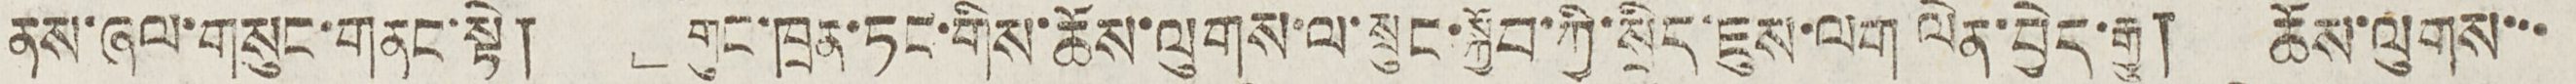ནས་ཞལ་གསུང་གནང་སྟེ། ﹂གུང་ཁྲན་ཏང་གིས་ཆོས་ལུགས་ལ་སྲུང་སྐྱོབ་ཀྱི་སྲིད་ཇུས་ལག ལེན་བྱེད་རྒྱུ། ཆོས་ལུགས་་་
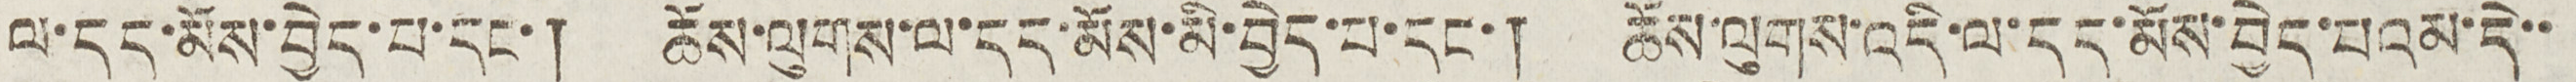ལ་དད་མོས་བྱེད་པ་དང་། ཆོས་ལུགས་ལ་དད་མོས་མི་བྱེད་པ་དང་། ཆོས་ལུགས་འདི་ལ་དད་མོས་བྱེད་པའམ་དེ་་
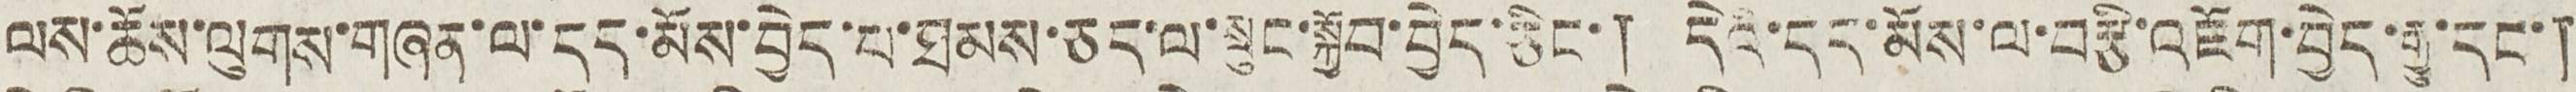ལས་ཆོས་ལུགས་གཞན་ལ་དད་མོས་བྱེད་པ་ཐམས་ཅད་ལ་སྲུང་སྐྱོབ་བྱེད་ཅིང་། དེའི་དད་མོས་ལ་བརྩི་འཇོག་བྱེད་རྒྱུ་དང་།
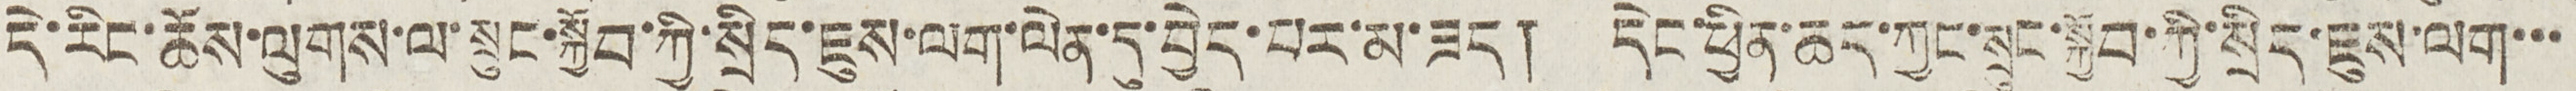དེ་རིང་ཆོས་ལུགས་ལ་སྲུང་སྐྱོབ་ཀྱི་སྲིད་ཇུས་ལག་ལེན་དུ་བྱེད་པར་མ་ཟད། དེང་ཕྱིན་ཆད་ཀྱང་སྲུང་སྐྱོབ་ཀྱི་སྲིད་ཇུས་ལག་་་
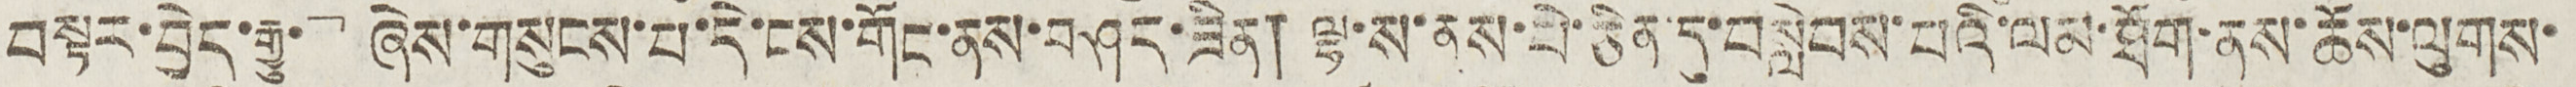བསྟར་བྱེད་རྒྱུ་﹁ ཞེས་གསུངས་པ་དེ་ངས་གོང་ནས་བཤད་ཟིན། ལྷ་ས་ནས་པེ་ཅིན་དུ་བསླེབས་པའི་ལམ་ཐོག་ནས་ཆོས་ལུགས་
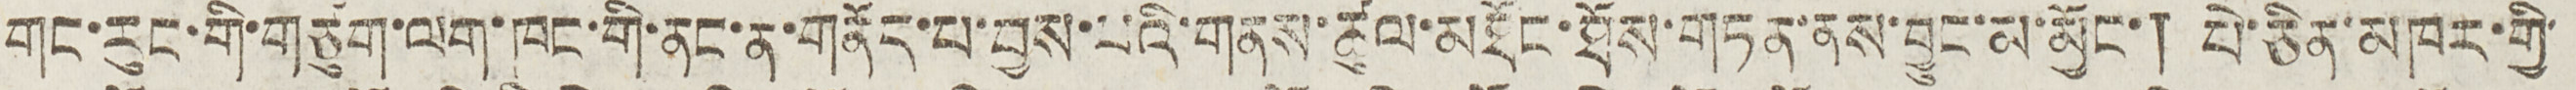གང་རུང་གི་གཙུག་ལག་ཁང་གི་ནང་ན་གནོད་པ་བྱས་པའི་གནས་ཚུལ་མཐོང་ཐོས་གཏན་ནས་བྱུང་མ་མྱོང་། པེ་ཅིན་མཁར་གྱི་
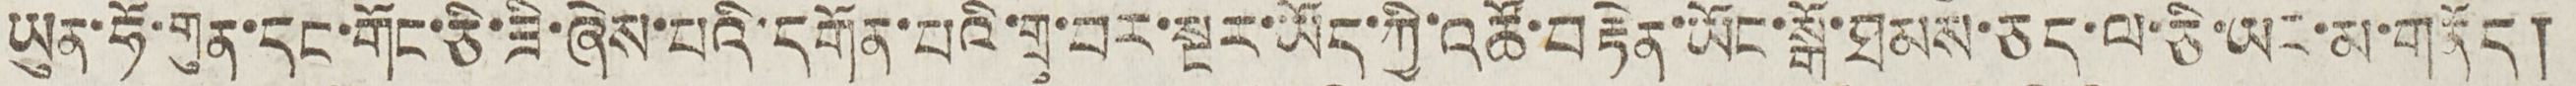ཡུན་ཧོ་གུན་དང་གོང་ཅི་ཟི་ཞེས་པའི་དགོན་པའི་གྲྭ་བར་སྔར་ཡོད་ཀྱི་འཚོ་བརྟེན་ཡོང་སྒོ་ཐམས་ཅད་ལ་ཅི་ཡང་མ་གནོད།
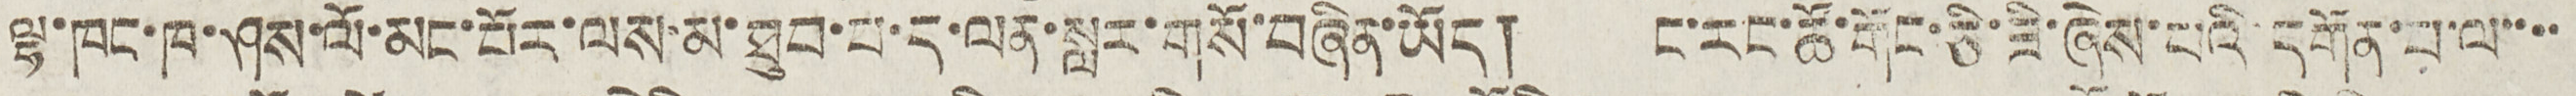ལྷ་ཁང་ཁ་ཤས་ལོ་མང་པོར་ལས་མ་ཐུབ་པ་ད་ལན་སླར་གསོ་བཞིན་ཡོད། ང་རང་ཚོ་གོང་ཅི་ཟི་ཞེས་པའི་དགོན་པ་ལ་་་་
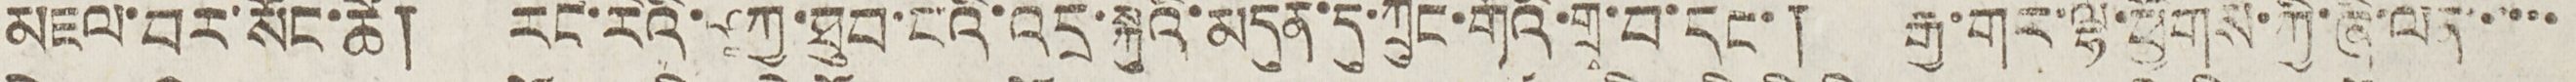མཇལ་བར་སོང་ཚེ། རང་རེའི་ཤཀྱ་ཐུབ་པའི་འདྲ་སྐུའི་མདུན་དུ་ཀྲུང་གོའི་གྲྭ་བ་དང་། རྒྱ་གར་ལྷོ་ཕྱོགས་ཀྱི་ཞི་ལན་་་་་་
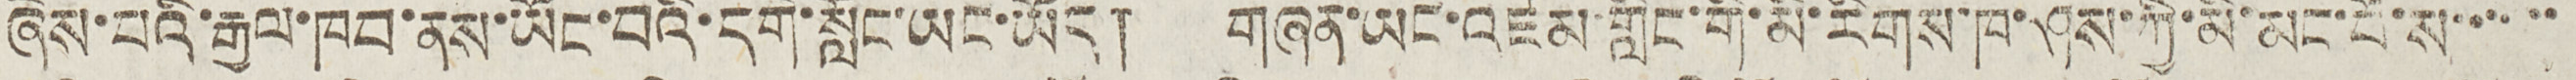ཞེས་པའི་རྒྱལ་ཁབ་ནས་ཡོང་བའི་དགེ་སློང་ཡང་ཡོད། གཞན་ཡང་འཛམ་གླིང་གི་མི་རིགས་ཁ་ཤས་ཀྱི་མི་མང་པོ་ས་་་་་་
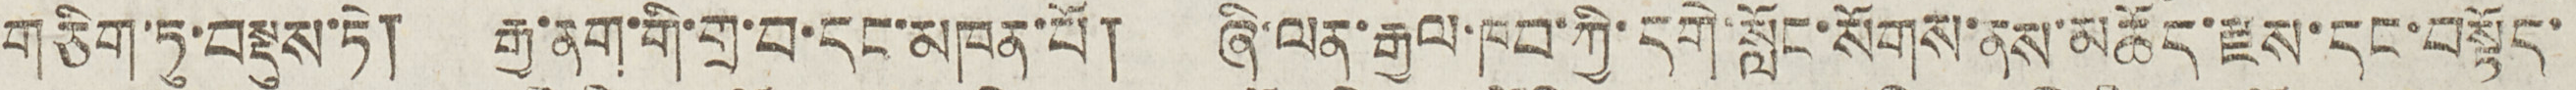གཅིག་ཏུ་བསྡུས་ཏེ། རྒྱ་ནག་གི་གྲ་བ་དང་མཁན་པོ། ཞི་ལན་རྒྱལ་ཁབ་ཀྱི་དགེ་སློང་སོགས་ནས་མཆོད་རྫས་དང་བསྟོད་
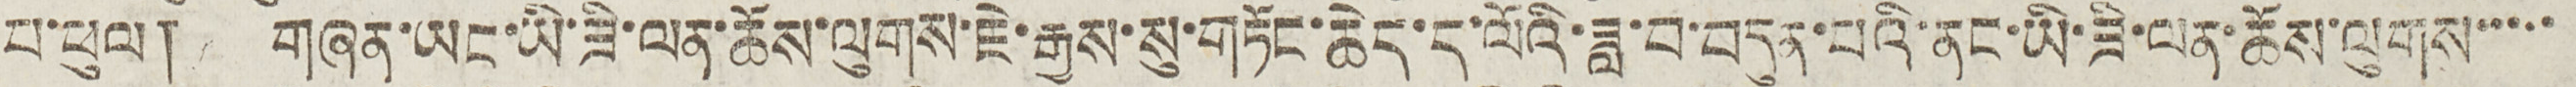པ་ཕུལ། གཞན་ཡང་ཡི་ཟི་ལན་ཆོས་ལུགས་ཇེ་རྒྱས་སུ་གཏོང་ཆེད་ད་ལོའི་ཟླ་བ་བདུན་པའི་ནང་ཡི་ཟི་ལན་ཆོས་ལུགས་་་་་
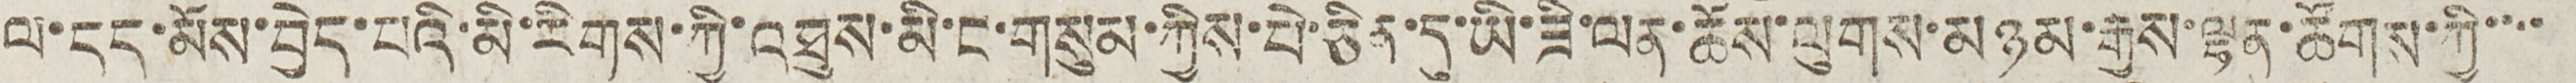ལ་དད་མོས་བྱེད་པའི་མི་རིགས་ཀྱི་འཐུས་མི་ང་གསུམ་ཀྱིས་པེ་ཅིན་དུ་ཡི་ཟི་ལན་ཆོས་ལུགས་མཉམ་རྒྱས་ལྷན་ཚོགས་ཀྱི་་་་
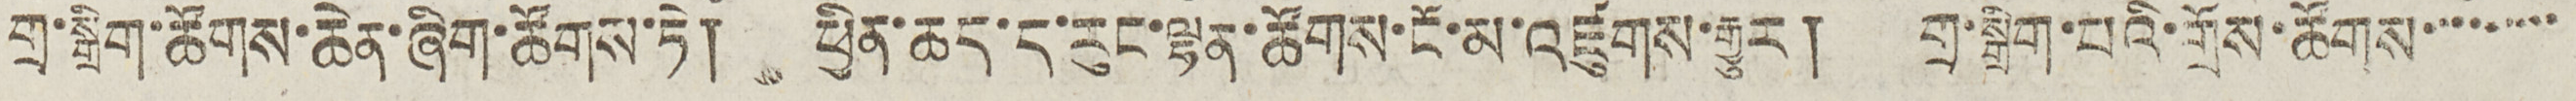གྲ་སྒྲིག་ཚོགས་ཆེན་ཞིག་ཚོགས་ཏེ། ཕྱིན་ཆད་ད་རུང་ལྷན་ཚོགས་ངོ་མ་འཛུགས་རྒྱུར། གྲ་སྒྲིག་པའི་གྲོས་ཚོགས་་་་་་་་་
